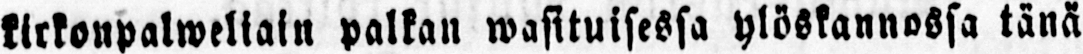kirkonpalweliain palkan wasituisessa ylöskannossa tänä
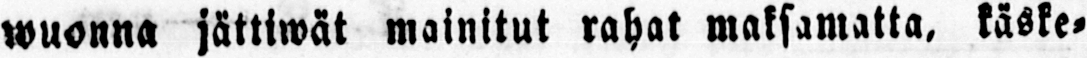wuonna jättiwät mainitut rahat maksamatta, käske-
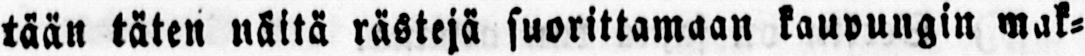tään täten näitä rästejä suorittamaan kaupungin mak-
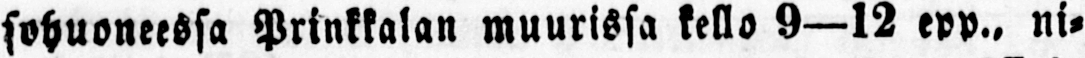sohuoneessa Prinkkalan muurissa kello 9—12 epp., ni-
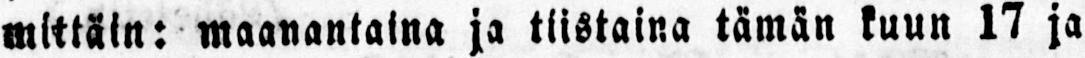mittäin: maanantaina ja tiistaina tämän kuun 17 ja
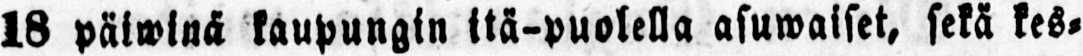18 päiwinä kaupungin itä-puolella asuwaiset, sekä kes-
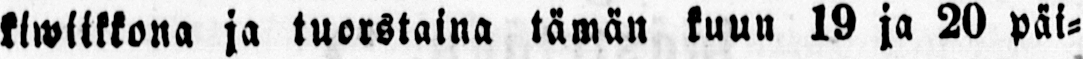kiwiikkona ja tuorstaina tämän kuun 19 ja 29 päi-
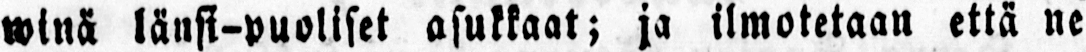winä länsi-puoliset asukkaat; ja ilmotetaan että ne
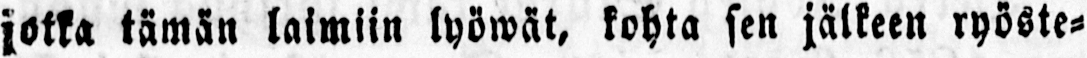jotka tämän laimiin lyöwät, kohta sen jälkeen ryöste-
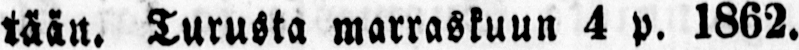tään. Turusta marraskuun 4 p. 1862.
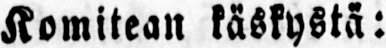Komitean käskystä:
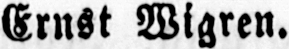Ernst Wigren.
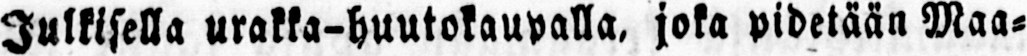Julkisella urakka-huutokaupalla, joka pidetään Maa-
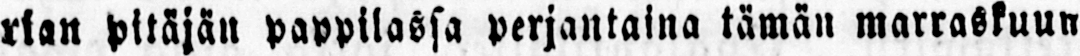rian pitäjän pappilassa perjantaina tämän marraskuun
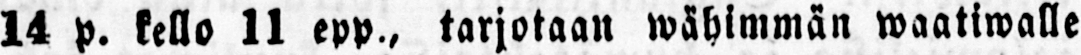14 p. kello 11 epp., tarjotaan wähimmän waatiwalle
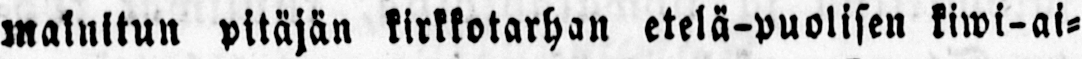mainitun pitäjän kirkkotarhan etelä-puolisen kiwi-ai-
